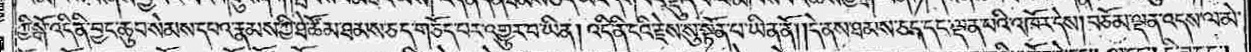ཀྱི་སྒོ་འདི་ནི་བྱང་ཆུབ་སེམས་དཔའ་རྣམས་ཀྱི་ཐེ་ཚོམ་ཐམས་ཅད་གཅོད་པར་འགྱུར་བ་ཡིན། །འདི་ནི་ངའི་རྗེས་སུ་སྟོན་པ་ཡིན་ནོ། །དེ་ནས་ཐམས་ཅད་དང་ལྡན་པའི་འཁོར་དེས། བཅོམ་ལྡན་འདས་ལ་མེ་
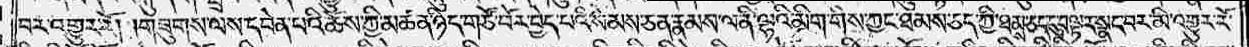བར་འགྱུར་རོ། །གཟུགས་ལས་དབེན་པའི་ཆོས་ཀྱི་མཚན་ཉིད་གཙོ་བོར་བྱེད་པའི་སེམས་ཅན་རྣམས་ལ་ནི་ལྷའི་མིག་གིས་ཀྱང་ཐམས་ཅད་ཀྱི་ཐམས་ཅད་དུ་བལྟར་སྣང་པར་མི་འགྱུར་རོ་
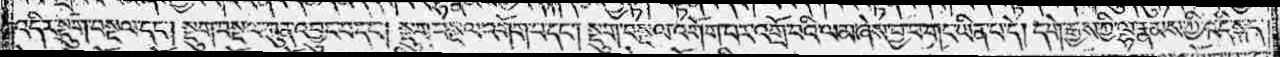འདིར་སྡུག་བསྔལ་དང༌། སྡུག་བསྔལ་ཀུན་འབྱུང་བ་དང༌། སྡུག་བསྔལ་འགོག་པ་དང༌། སྡུག་བསྔལ་འགོག་པར་འགྲོ་བའི་ལམ་ཞེས་བྱ་བ་གང་ཡིན་པ་དེ། དགེ་རྒྱས་ཀྱི་ལྷ་རྣམས་ཀྱི་འདི་སྐད་
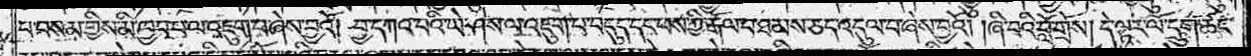པ་བསམ་གྱིས་མི་ཁྱབ་པ་ལ་འཇུག་པ་ཞེས་བྱའོ། བྱ་དཀའ་བའི་ཡེ་ཤེས་ལ་འཇུག་པ་བདུད་དང་ཕས་ཀྱི་རྒོལ་བ་ཐམས་ཅད་འདུལ་བ་ཞེས་བྱའོ། །ཞི་བའི་བློ་གྲོས། དེ་ལྟར་ལོ་དྲུག་ཚང་
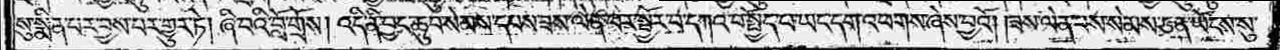སུ་སྨིན་པར་བྱས་པར་གྱུར་ཏེ། ཞི་བའི་བློ་གྲོས། འདི་ནི་བྱང་ཆུབ་སེམས་དཔས་ཟས་ལེན་པར་སྦྱོར་བ་དཀའ་བ་སྤྱོད་པ་ཡང་དག་འཕགས་ཞེས་བྱའོ། །ཟས་ལེན་པས་སེམས་ཅན་ཡོངས་སུ་
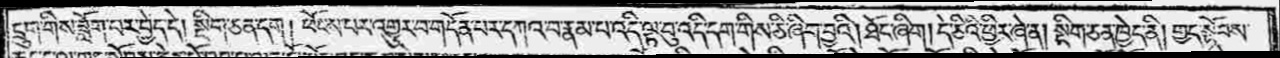དྲུག་གིས་ཟློག་པར་བྱེད་དེ། སྡིག་ཅན་དག །ཕོངས་པར་འགྱུར་བ་གདོན་པར་དཀའ་བ་རྣམ་པ་འདི་ལྟ་བུ་འདི་དག་གིས་ཅི་ཞིག་བྱའི། ཐོང་ཞིག །དེ་ཅིའི་ཕྱིར་ཞེ་ན། སྡིག་ཅན་ཁྱེད་ནི། གྱད་སྟོབས་
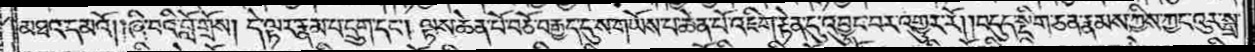མཐའ་དམའོ། །ཞི་བའི་བློ་གྲོས། དེ་ལྟར་རྣམ་པ་དྲུག་དང༌། ལྟས་ཆེན་པོ་བཅོ་བརྒྱད་དུ་ས་གཡོས་པ་ཆེན་པོ་འཇིག་རྟེན་དུ་འབྱུང་བར་འགྱུར་རོ། །བདུད་སྡིག་ཅན་རྣམས་ཀྱིས་ཀྱང་འུར་སྒྲ་
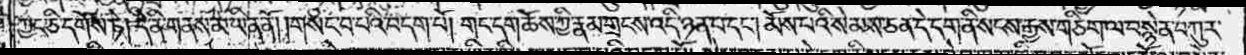ཀྱང་ཅི་དགོས་ཏེ། དེ་ནི་གནས་མ་ཡིན་ནོ། །གསང་བ་པའི་བདག་པོ། གང་དག་ཆོས་ཀྱི་རྣམ་གྲངས་འདི་ཉན་པ་དང༌། མོས་པའི་སེམས་ཅན་དེ་དག་ནི་སངས་རྒྱས་གཅིག་ལ་བསྙེན་བཀུར་
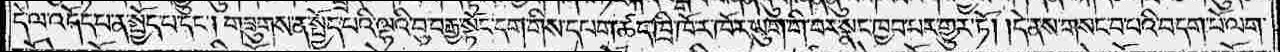དེ་ལ་འདོད་པ་ན་སྤྱོད་པ་དང༌། གཟུགས་ན་སྤྱོད་པའི་ལྷའི་བུ་བརྒྱ་སྟོང་དག་གིས་དཔག་ཚད་ཁྲི་ཁོར་ཁོར་ཡུག་གི་བར་སྣང་ཁྱབ་པར་གྱུར་ཏོ། །དེ་ནས་གསང་བ་པའི་བདག་པོ་ལག་
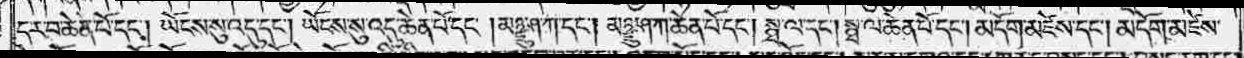ད་ར་བ་ཆེན་པོ་དང༌། ཡོངས་སུ་འདུ་དང༌། ཡོངས་སུ་འདུ་ཆེན་པོ་དང༌། མཉྫུ་ཤ་ཀ་དང༌། མཉྫུ་ཤ་ཀ་ཆེན་པོ་དང༌། སྠ་ལ་དང༌། སྠ་ལ་ཆེན་པོ་དང༌། མདོག་མཛེས་དང༌། མདོག་མཛེས་
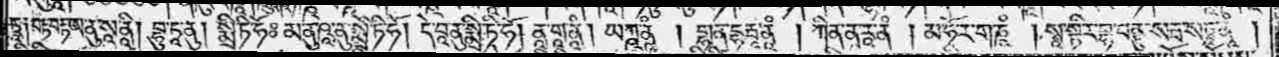ཏྲཱ༑ བརྟ་བརྟ་ཨ་ནུ་སཱ་ནཱི། བྷུ་ཏཱ་ནུ། སྨྲི་ཏི་ཧོཿམ་ནུ་ཥཱ་ནུ་སྨྲི་ཏི་ཧོ། དེ་བཱ་ནུ་སྨྲི་ཏི་ཧོ། ནཱ་གཱ་ནཱཾ། ཡཀྵ་ནཱཾ། གྷ་ན་དྷ་རྦཱ་ནཱཾ། ཀི་ན་ན་རཱ་ནཾ། མ་ཧོ་ར་ག་ཎཱཾ། སྭཱ་སྟིར་བྷ་བནྟུ་སརྦ་སཏྭཱ་ནཾ་།
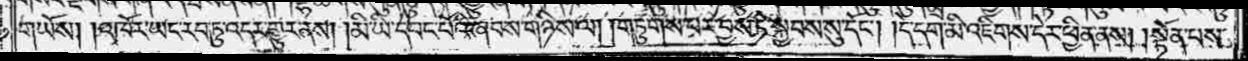གཡོས། །འཁོར་ཡང་རབ་ཏུ་འདར་གྱུར་ནས། །མི་ཡི་དབང་པོའི་ཞབས་གཉིས་ལ། །གཏུགས་པར་བྱས་ཏེ་སྐྱབས་སུ་དོང༌། །དེ་དག་མི་འཇིགས་དེར་ཕྱིན་ནས། །སྟོན་པས་
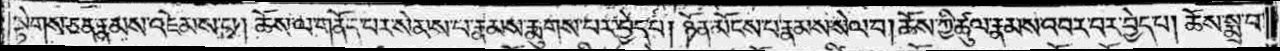སྟེགས་ཅན་རྣམས་འཇོམས་པ། ཆོས་ལ་གནོད་པར་སེམས་པ་རྣམས་རྨུགས་པར་བྱེད་པ། ཉོན་མོངས་པ་རྣམས་སེལ་བ། ཆོས་ཀྱི་ཚུལ་རྣམས་འབར་བར་བྱེད་པ། ཆོས་སྨྲ་བ་
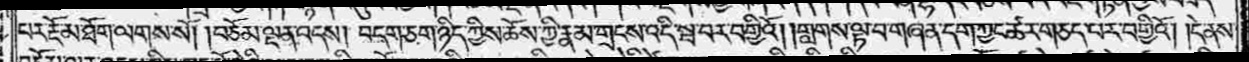པར་རྔོ་མ་ཐོག་ལགས་སོ། །བཅོམ་ལྡན་འདས། བདག་ཅག་ཉིད་ཀྱིས་ཆོས་ཀྱི་རྣམ་གྲངས་འདི་སྦ་བར་བགྱིའོ། །གླགས་ལྟ་བ་གཞན་དག་ཀྱང་ཚར་གཅད་པར་བགྱིའོ། །དེ་ནས་
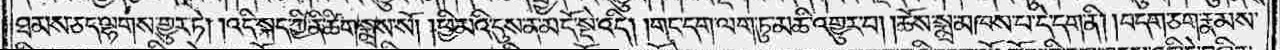ཐམས་ཅད་ལྷགས་གྱུར་ཏེ། །འདི་སྐད་ཀྱི་ནི་ཚིག་སྨྲས་སོ། །ཕྱི་མའི་དུས་ན་མདོ་སྡེ་འདི། །གང་དག་ལག་ཏུ་མཆི་འགྱུར་བ། །ཆོས་སྨྲ་མཁས་པ་དེ་དག་ནི། །བདག་ཅག་རྣམས་
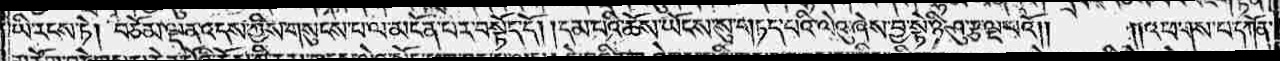ཡི་རངས་ཏེ། བཅོམ་ལྡན་འདས་ཀྱིས་གསུངས་པ་ལ་མངོན་པར་བསྟོད་དོ། །དམ་པའི་ཆོས་ཡོངས་སུ་གཏད་པའི་ལེའུ་ཞེས་བྱ་སྟེ་ཉི་ཤུ་རྩ་ལྔ་པའོ༎༎འཕགས་པ་དཀོན་
